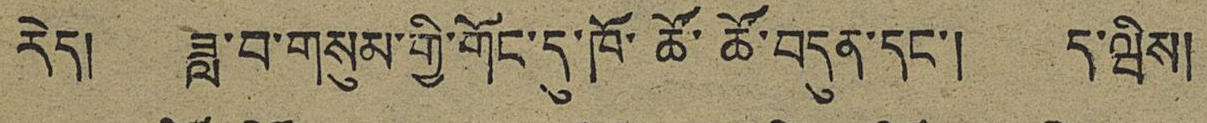རེད། ཟླ་བ་གསུམ་གྱི་གོང་དུ་ཁོ་ཚོ་ཚོ་བདུན་དང་། ད་ཝིས།
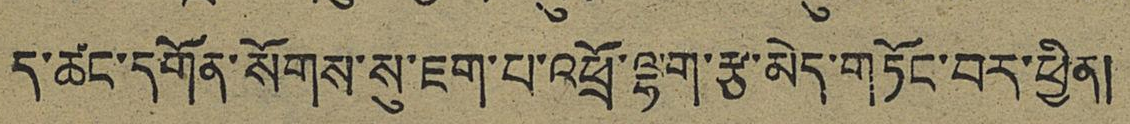ད་ཚང་དགོན་སོགས་སུ་ཇག་པ་འཕྲོ་ལྷག་རྩ་མེད་གཏོང་བར་ཕྱིན།
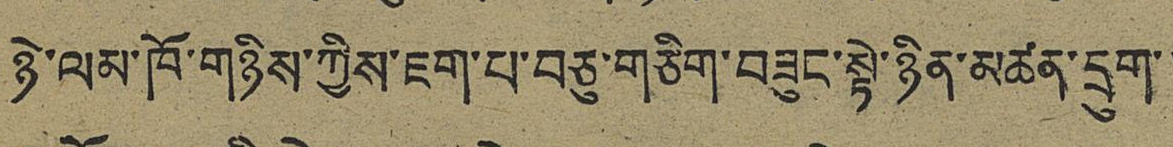ཉེ་ལམ་ཁོ་གཉིས་ཀྱིས་ཇག་པ་བཅུ་གཅིག་བཟུང་སྟེ་ཉིན་མཚན་དྲུག་་
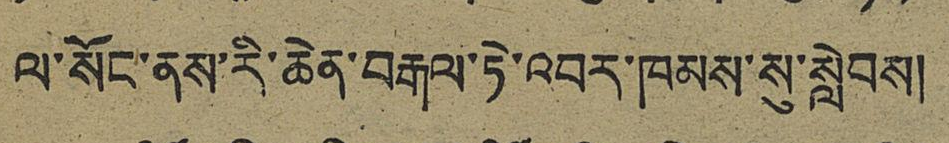ལ་སོང་ནས་རི་ཆེན་བརྒལ་ཏེ་འབར་ཁམས་སུ་སླེབས།
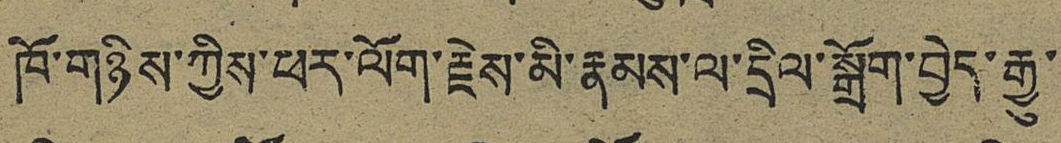ཁོ་གཉིས་ཀྱིས་ཕར་ལོག་རྗེས་མི་རྣམས་ལ་དྲིལ་སྒྲོག་བྱེད་རྒྱུ་
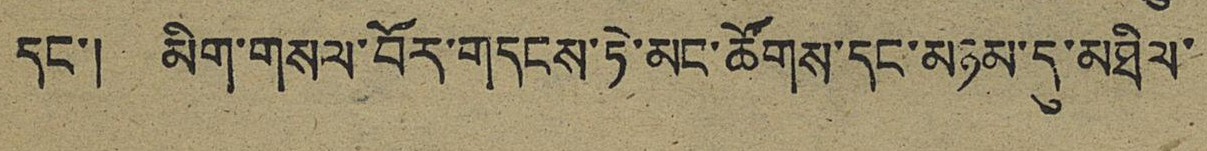དང་། མིག་གསལ་བོར་གདངས་ཏེ་མང་ཚོགས་དང་མཉམ་དུ་མཐིལ་
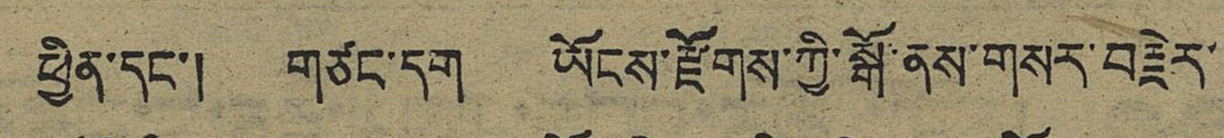ཕྱིན་དང་། གཙང་དག ཡོངས་རྫོགས་ཀྱི་སྒོ་ནས་གསར་བརྗེར་
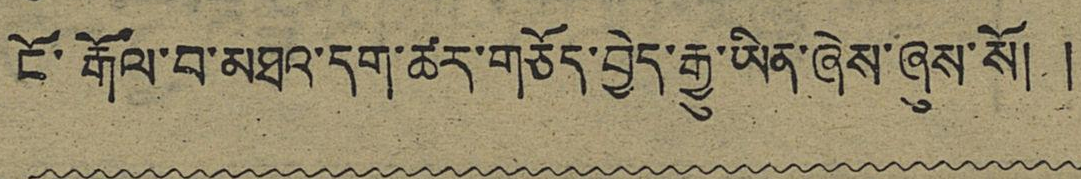ངོ་རྒོལ་བ་མཐའ་དག་ཚར་གཅོད་བྱེད་རྒྱུ་ཡིན་ཞེས་ཞུས་སོ། །
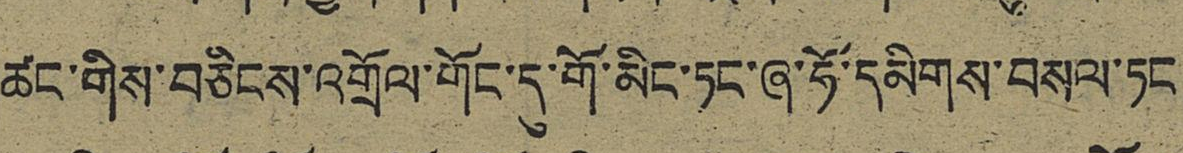ཚང་གིས་བཅིངས་འགྲོལ་གོང་དུ་གོ་མིང་ཏང་ཞུ་ཧོ་དམིགས་བསལ་ཏང
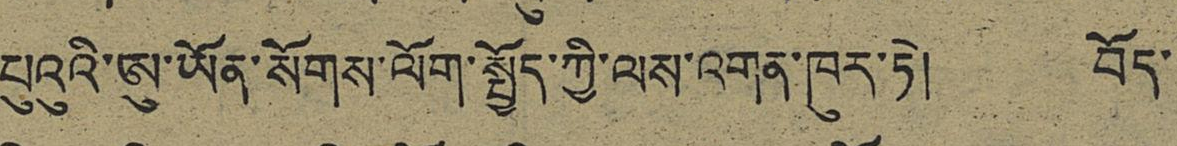པུའུའི་ཨུ་ཡོན་སོགས་ལོག་སྤྱོད་ཀྱི་ལས་འགན་ཁུར་ཏེ། བོད་
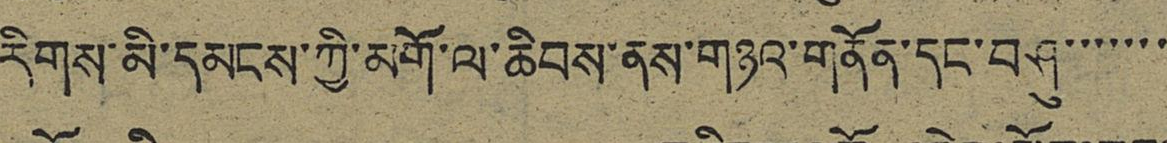རིགས་མི་དམངས་ཀྱི་མགོ་ལ་ཆིབས་ནས་གཉའ་གནོན་དང་བཤུ་་་་་་་
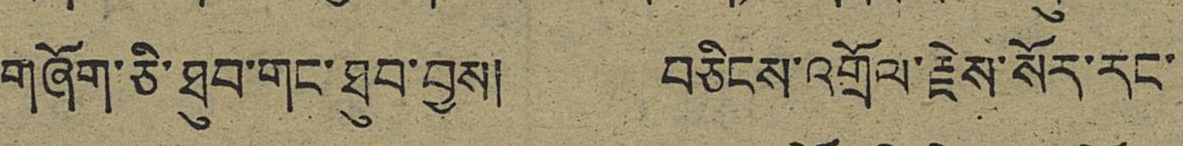གཞོག་ཅི་ཐུབ་གང་ཐུབ་བྱས། བཅིངས་འགྲོལ་རྗེས་སོར་རང་
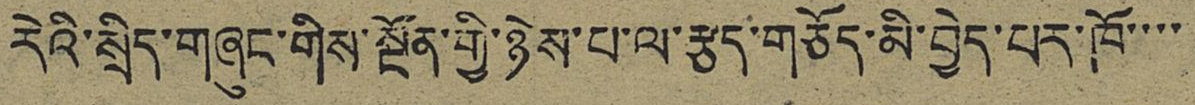རེའི་སྲིད་གཞུང་གིས་སྔོན་གྱི་ཉེས་པ་ལ་རྩད་གཅོད་མི་བྱེད་པར་ཁོ་་་་
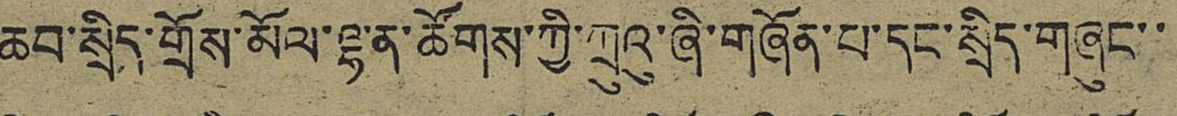ཆབ་སྲིད་གྲོས་མོལ་ལྷན་ཚོགས་ཀྱི་ཀྲུའུ་ཞི་གཞོན་པ་དང་སྲིད་གཞུང་་
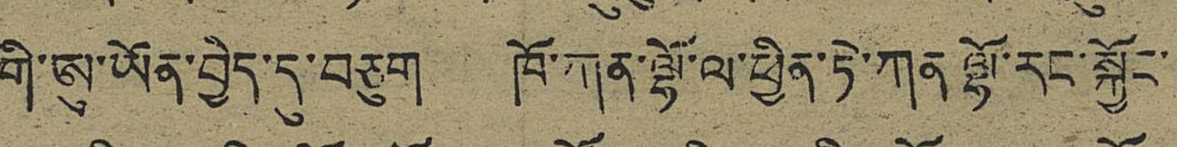གི་ཨུ་ཡོན་བྱེད་དུ་བཅུག ཁོ་ཀན་ལྷོ་ལ་ཕྱིན་ཏེ་ཀན་ལྷོ་རང་སྐྱོང་
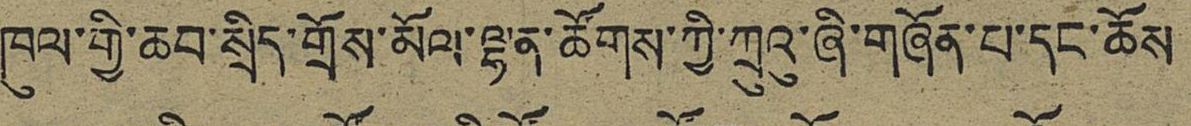ཁུལ་གྱི་ཆབ་སྲིད་གྲོས་མོལ་ལྷན་ཚོགས་ཀྱི་ཀྲུའུ་ཞི་གཞོན་པ་དང་ཆོས
